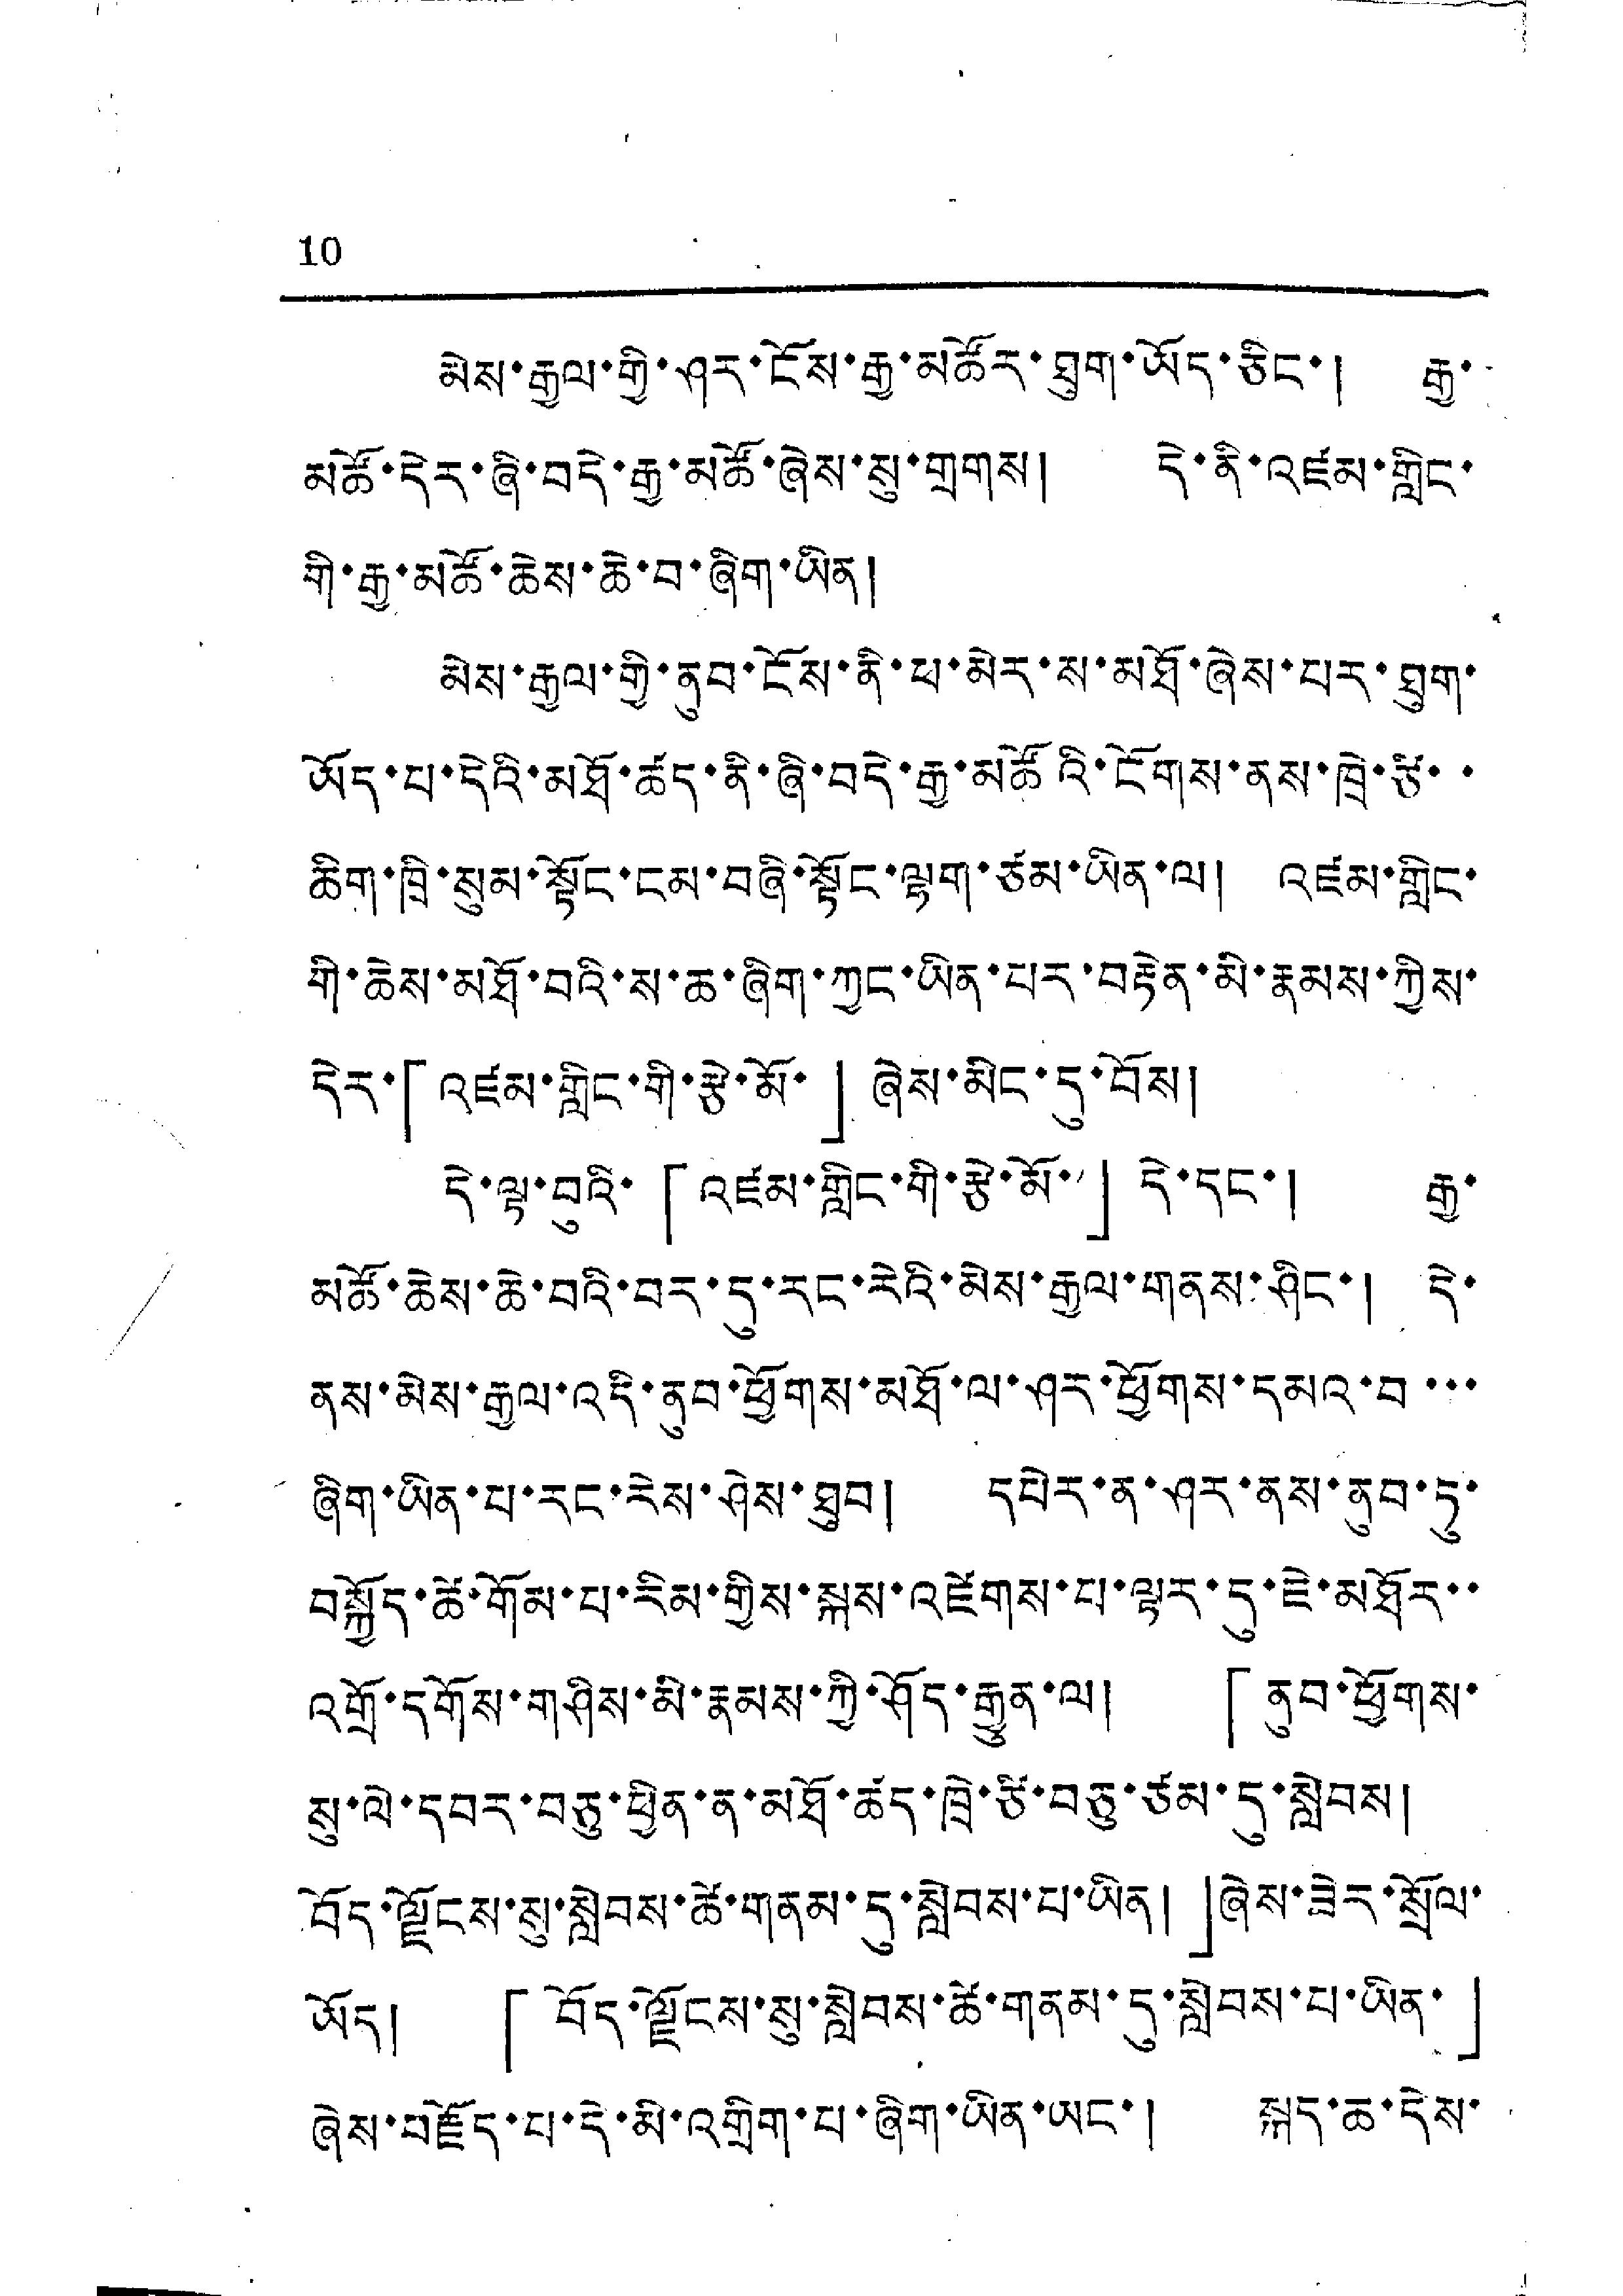10
མེས་རྒྱལ་གྱི་ཤར་ངོས་རྒྱ་མཚོར་ཐུག་ཡོད་ཅིང་། རྒྱ་
མཚོ་དེར་ཞི་བདེ་རྒྱ་མཚོ་ཞེས་སུ་གྲགས། དེ་ནི་འཛམ་གླིང་
གི་རྒྱ་མཚོ་ཆེས་ཆེ་བ་ཞིག་ཡིན།
མེས་རྒྱལ་གྱི་ནུབ་ངོས་ནི་ཕ་མེར་ས་མཐོ་ཞེས་པར་ཐུག་
ཡོད་པ་དེའི་མཐོ་ཚད་ནི་ཞི་བདེ་རྒྱ་མཚོའི་ངོགས་ནས་ཁྲེ་ཙི་་
ཆིག་ཁྲི་སུམ་སྟོང་ངམ་བཞི་སྟོང་ལྷག་ཙམ་ཡིན་ལ། འཛམ་གླིང་
གི་ཆེས་མཐོ་བའི་ས་ཆ་ཞིག་ཀྱང་ཡིན་པར་བརྟེན་མི་རྣམས་ཀྱིས་
དེར་「འཛམ་གླིང་གི་རྩེ་མོ་」ཞེས་མིང་དུ་བོས།
དེ་ལྟ་བུའི་「འཛམ་གླིང་གི་རྩེ་མོ་」དེ་དང་། རྒྱ་
མཚོ་ཆེས་ཆེ་བའི་བར་དུ་རང་རེའི་མེས་རྒྱལ་གནས་ཤིང་། དེ་
ནས་མེས་རྒྱལ་འདི་ནུབ་ཕྱོགས་མཐོ་ལ་ཤར་ཕྱོགས་དམའ་བ་་་
ཞིག་ཡིན་པ་རང་རེས་ཤེས་ཐུབ། དཔེར་ན་ཤར་ནས་ནུབ་ཏུ་
བསྐྱོད་ཚེ་གོམ་པ་རིམ་གྱིས་སྐས་འཛེགས་པ་ལྟར་དུ་ཇེ་མཐོར་་
འགྲོ་དགོས་གཤིས་མི་རྣམས་ཀྱི་ཤོད་རྒྱུན་ལ། 「ནུབ་ཕྱོགས་
སུ་ལེ་དབར་བཅུ་ཕྱིན་ན་མཐོ་ཚད་ཁྲེ་ཙི་བཅུ་ཙམ་དུ་སླེབས།
བོད་ལྗོངས་སུ་སླེབས་ཚེ་གནམ་དུ་སླེབས་པ་ཡིན།」ཞེས་ཟེར་སྲོལ་
ཡོད། 「བོད་ལྗོངས་སུ་སླེབས་ཚེ་གནམ་དུ་སླེབས་པ་ཡིན་」
ཞེས་བརྗོད་པ་དེ་མི་འགྲིག་པ་ཞིག་ཡིན་ཡང་། སྐད་ཆ་དེས་
